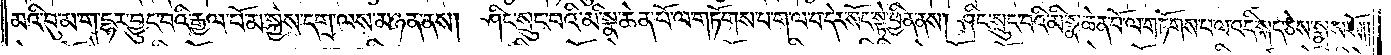མའི་བུ་མ་ག་དྷར་བྱུང་བའི་རྒྱལ་པོ་མ་སྐྱེས་དགྲ་ལས་མཉན་ནས། ཤིང་སྲུང་བའི་མི་སྣ་ཆེན་པོ་ལ་གཏོགས་པ་ག་ལ་བ་དེར་སོང་སྟེ་ཕྱིན་ནས། ཤིང་སྲུང་བའི་མི་སྣ་ཆེན་པོ་ལ་གཏོགས་པ་ལ་འདི་སྐད་ཅེས་སྨྲས་སོ༎
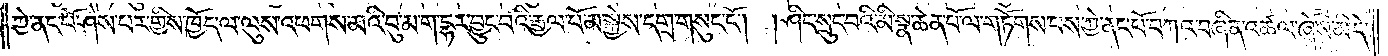ཀྱེ་ནང་པོ་ཤེས་པར་གྱིས་ཁྱོད་ལ་ལུས་འཕགས་མའི་བུ་མ་ག་དྷར་བྱུང་བའི་རྒྱལ་པོ་མ་སྐྱེས་དགྲ་གསུང་ངོ༌། །ཤིང་སྲུང་བའི་མི་སྣ་ཆེན་པོ་ལ་གཏོགས་པས་ཀྱེ་ནང་པོ་བཀའ་བཞིན་འཚལ་ཞེས་མི་དེ་
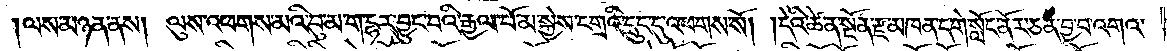ལས་མཉན་ནས། ལུས་འཕགས་མའི་བུ་མ་ག་དྷར་བྱུང་བའི་རྒྱལ་པོ་མ་སྐྱེས་དགྲའི་དྲུང་དུ་འཕགས་སོ། །དེའི་ཚེ་ན་སྔོན་རྫ་མཁན་དགེ་སློང་ནོར་ཅན་བྱ་བ་འགའ་
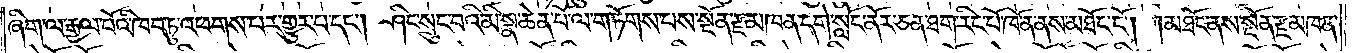ཞིག་ལ་རྒྱལ་པོའི་ཁབ་ཏུ་འཕགས་པར་གྱུར་པ་དང༌། ཤིང་སྲུང་བའི་མི་སྣ་ཆེན་པོ་ལ་གཏོགས་པས་སྔོན་རྫ་མཁན་དགེ་སློང་ནོར་ཅན་ཐག་རིང་པོ་ཁོ་ན་ནས་མཐོང་ངོ༌། །མཐོང་ནས་སྔོན་རྫ་མཁན་
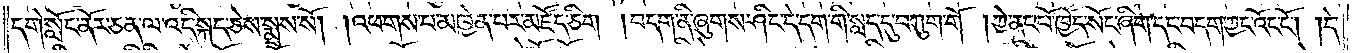དགེ་སློང་ནོར་ཅན་ལ་འདི་སྐད་ཅེས་སྨྲས་སོ། །འཕགས་པ་མཁྱེན་པར་མཛོད་ཅིག །བདག་ནི་ཞུགས་ཤིང་དེ་དག་གི་སླད་དུ་བཀུག་གོ །ཀྱེ་ནང་པོ་ཁྱོད་སོང་ཞིག་དང་བདག་ཀྱང་འོང་ངོ༌། །དེ་
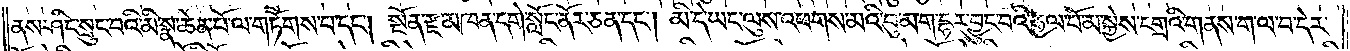ནས་ཤིང་སྲུང་བའི་མི་སྣ་ཆེན་པོ་ལ་གཏོགས་པ་དང༌། སྔོན་རྫ་མཁན་དགེ་སློང་ནོར་ཅན་དང༌། མི་དེ་ཡང་ལུས་འཕགས་མའི་བུ་མ་ག་དྷར་བྱུང་བའི་རྒྱལ་པོ་མ་སྐྱེས་དགྲའི་གནས་ག་ལ་བ་དེར་
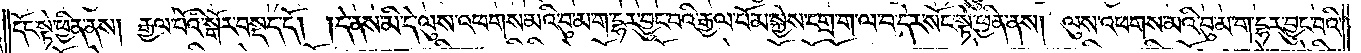དོང་སྟེ་ཕྱིན་ནས། རྒྱལ་པོའི་སྒོར་བསྡད་དོ། །དེ་ནས་མི་དེ་ལུས་འཕགས་མའི་བུ་མ་ག་དྷར་བྱུང་བའི་རྒྱལ་པོ་མ་སྐྱེས་དགྲ་ག་ལ་བ་དེར་སོང་སྟེ་ཕྱིན་ནས། ལུས་འཕགས་མའི་བུ་མ་ག་དྷར་བྱུང་བའི་
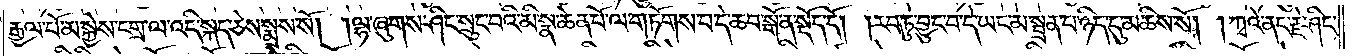རྒྱལ་པོ་མ་སྐྱེས་དགྲ་ལ་འདི་སྐད་ཅེས་སྨྲས་སོ། །ལྷ་ཞུགས་ཤིང་སྲུང་བའི་མི་སྣ་ཆེན་པོ་ལ་གཏོགས་པ་དེ་ཆབ་སྒོ་ན་སྡོད་དོ། །རབ་ཏུ་བྱུང་བ་དེ་ཡང་མ་སྦྲན་པ་ཉིད་དུ་མཆིས་སོ། །ཀྭའེ་ནང་རྗེ་ཤིང་
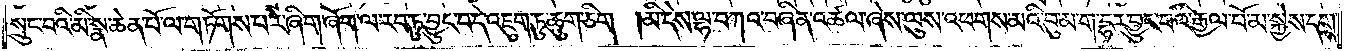སྲུང་བའི་མི་སྣ་ཆེན་པོ་ལ་གཏོགས་པ་རེ་ཞིག་ཞོག་ལ་རབ་ཏུ་བྱུང་བ་དེ་འཇུག་ཏུ་ཆུག་ཅིག །མི་དེས་ལྷ་བཀའ་བཞིན་འཚལ་ཞེས་ལུས་འཕགས་མའི་བུ་མ་ག་དྷར་བྱུང་བའི་རྒྱལ་པོ་མ་སྐྱེས་དགྲ་
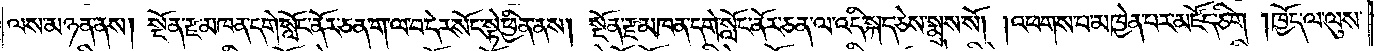ལས་མཉན་ནས། སྔོན་རྫ་མཁན་དགེ་སློང་ནོར་ཅན་ག་ལ་བ་དེར་སོང་སྟེ་ཕྱིན་ནས། སྔོན་རྫ་མཁན་དགེ་སློང་ནོར་ཅན་ལ་འདི་སྐད་ཅེས་སྨྲས་སོ། །འཕགས་པ་མཁྱེན་པར་མཛོད་ཅིག །ཁྱོད་ལ་ལུས་
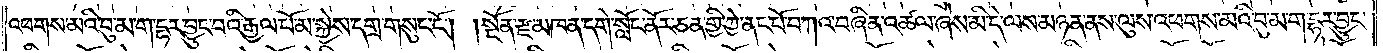འཕགས་མའི་བུ་མ་ག་དྷར་བྱུང་བའི་རྒྱལ་པོ་མ་སྐྱེས་དགྲ་གསུང་ངོ༌། །སྔོན་རྫ་མཁན་དགེ་སློང་ནོར་ཅན་གྱི་ཀྱེ་ནང་པོ་བཀའ་བཞིན་འཚལ་ཞེས་མི་དེ་ལས་མཉན་ནས་ལུས་འཕགས་མའི་བུ་མ་ག་དྷར་བྱུང་
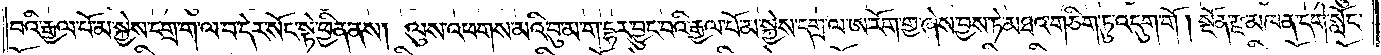བའི་རྒྱལ་པོ་མ་སྐྱེས་དགྲ་ག་ལ་བ་དེར་སོང་སྟེ་ཕྱིན་ནས། ལུས་འཕགས་མའི་བུ་མ་ག་དྷར་བྱུང་བའི་རྒྱལ་པོ་མ་སྐྱེས་དགྲ་ལ་ཨ་རོག་གྱ་ཞེས་བྱས་ཏེ་མཐའ་གཅིག་ཏུ་འདུག་གོ། །སྔོན་རྫ་མཁན་དགེ་སློང་
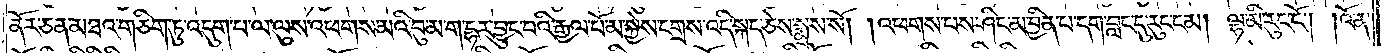ནོར་ཅན་མཐའ་གཅིག་ཏུ་འདུག་པ་ལ་ལུས་འཕགས་མའི་བུ་མ་ག་དྷར་བྱུང་བའི་རྒྱལ་པོ་མ་སྐྱེས་དགྲས་འདི་སྐད་ཅེས་སྨྲས་སོ། །འཕགས་པས་ཤིང་མ་བྱིན་པ་དག་བླང་དུ་རུང་ངམ། ལྷ་མི་རུང་ངོ༌། །འོན་
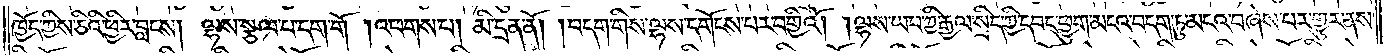ཁྱོད་ཀྱིས་ཅིའི་ཕྱིར་བླངས། ལྷས་སྩལ་པ་དག་གོ །འཕགས་པ། མི་དྲན་ནོ། །བདག་གིས་ལྷས་དགོངས་པར་བགྱིའོ། །ལྷས་ཡབ་ཀྱི་རྒྱལ་སྲིད་ཀྱི་དབང་ཕྱུག་མངའ་བདག་ཏུ་མངའ་བཞེས་པར་གྱུར་ནས་
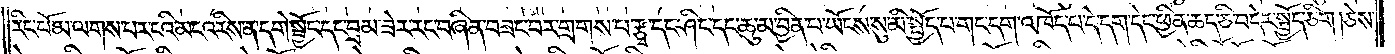རིང་པོ་མ་ལགས་པར་ངའི་མངའ་རིས་ན་དགེ་སྦྱོང་དང་བྲམ་ཟེར་རང་བཞིན་བཟང་བར་གྲགས་པ་རྩྭ་དང་ཤིང་དང་ཆུ་མ་བྱིན་པ་ཡོངས་སུ་མི་སྤྱོད་པ་གང་དག་འཁོད་པ་དེ་དག་དེང་ཕྱིན་ཆད་ནི་བདེར་སྤྱོད་ཅིག །ཅེས་
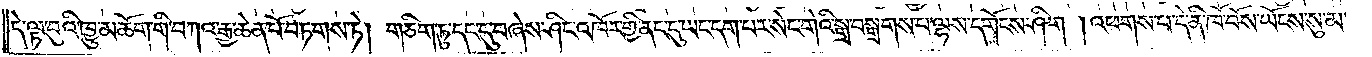དེ་ལྟ་བུའི་ཁྱུ་མཆོག་གི་བཀའ་རྒྱ་ཆེན་པོ་བཏགས་ཏེ། གཅིག་ཏུ་དང་དུ་བཞེས་ཤིང་འཁོར་གྱི་ནང་དུ་ཡང་དག་པར་སེང་གེའི་སྒྲ་བསྒྲགས་པ་ལྷས་དགོངས་ཤིག །འཕགས་པ་དེ་ནི་ཁོ་བོས་ཡོངས་སུ་མ་
